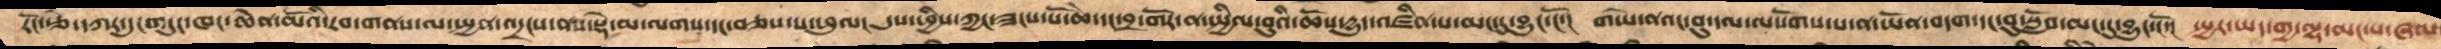རོང་རྩ་དཀར་དུང་གདུང་ཁང་ཆེན་མོའི་རབ་གནས་ལ་སྤྱན་འདྲངས་ནས་སྡེ་མ་ལགས་དང་བཅས་པ་ཕུལ།  དུས་ཕྱིས་ཀྱང་ཟངས་པོ་ཆེ་དང་བྲ་གོར་ན་སྤྱིལ་བུའི་ཆསོ་དྱུད་འཛིན་པ་མང་དུ་བྱུང་ངོ་།  གཡེ་ནའང་བུ་དལ་ལསོགས་པ་ཡོན་བདག་དང་བུ་སློབ་མང་དུ་བྱུང་ངོ་།  སྤྱར་ཡད་གྱ་ལྷ་མང་པ་ཞལ་
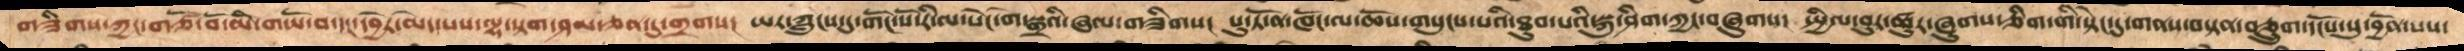གཟིགས་ཀྱང་གཙོ་བོ་མི་གཡོ་བ་དང་དབྱེར་མེད་པས་ལྷ་སྟག་ཤམ་ཅན་དུ་གྲགས།  ཡར་ཀླུངས་དུ་གོང་པོ་རི་ལ་སེང་གེ་སྒྲའི་ཞལ་གཟིགས།  པུ་ཏོ་ན་ཁོང་ལ་ཆོས་གསུངས་པའི་ཐུབ་པའི་སྐུ་ཤིག་ཀྱང་བཞུགས།  སྤྱིལ་བུར་ཚུར་ཞུགས་ཅིག་གི་སྟེང་དུ་གནས་བརྟན་བཅྲུག་དངོས་སུ་བྱོན་པས།
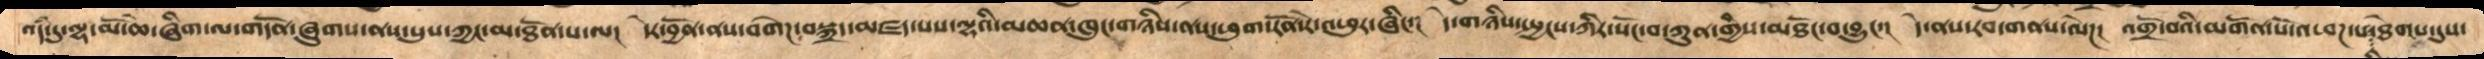འདཾ་དུ་ལྷ་མོ་ཆེ་ཞིག་ལ་གདོན་ཞུགས་ནས་སུས་ཀྱང་མ་ཐོན་པ་ལ།  དེར་བྱོན་ནས་བགེཌ་བསྐྲད་མཛད་པས་ལྷའི་མཆན་ཁུང་གཉིས་ནས་ཕུག་རོན་རེ་འཕུར་ཞིང་།  དེ་གཉིས་སྤྱང་ཀིར་སོང་བ་ཀུན་གྱིས་མཐོང་བ་བྱུང་།  དེ་ནས་རབ་གནས་ལེཌ།  འགྲོ་བའི་མགོན་པོ་འཕཌ་པ་ཐེགས་དུས་
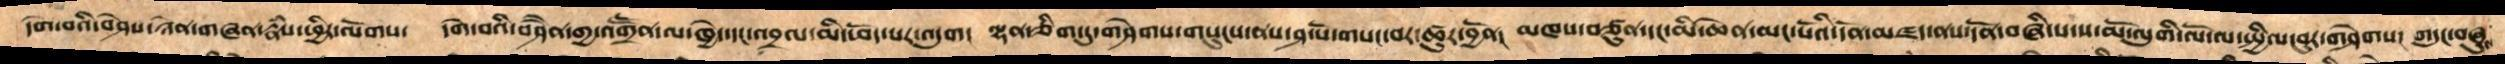དགེ་བའི་བཤེས་ཉེན་གཞན་རྣཾས་ཕྱིར་ལོགས་  དགེ་བའི་བཤཻན་གྱ་འགྲཽན་ལ་ཁྱེད་དང་འབྲལ་མི་ཕོད་པར་འདུག།  ལྷན་ཅིག་ཏུ་གཤེགས་གསུངས་ནས་ཤ་པོ་གསང་བར་ཚུན་བྱོན།  མཁས་བཙུན་དང་མི་ཆེན་མང་པོའི་དོན་མཛད་ནས་དོན་བཞི་པ་ས་མོ་ལུགི་ལོ་ལ་སྤྱིལ་བུར་གཤེགས།  གདུང་བཞུས
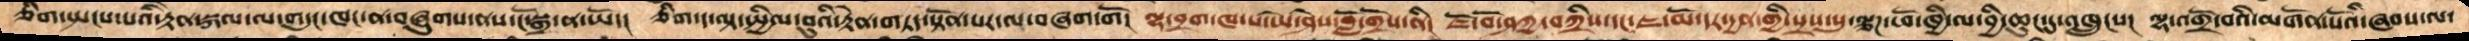ཅིག་སྤངས་པའི་རྟེན་སྐལ་ལ་གདུང་ཁང་ན་བཞུགས་ནས་ངོ་སྒྲ་ན་ཡོད།   ཅིག་ད་ལྟ་སྤྱིལ་བུའི་རྟེན་གཏད་སྟོན་པར་ལ་བཞག་གོ།  ལྷ་བྲག་ཁ་ས་ཡེ་ཤེས་བློ་གྲོས་ནི།  ཇོ་བོ་ཤཀྱ་བཀྲིས་དང་ཇ་མོ་དར་དྱན་གྱི་སྲས་སུ་ལྕཌ་ཕོ་ཁྱི་ལ་བྱི་ཆུང་དུ་འཁྲུངས།  ལྷ་འགྲོ་བའི་མགོན་པོའི་ཞབས་ལ་
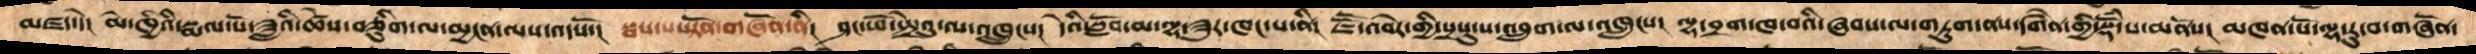མཛད་དེ།  མེ་ཁྱིའི་སྨལ་པོ་ཟླའི་ཚེས་བཅིུག་ལ་མྱངན་ལས་འདསོ་།  སྦས་པ་ཡྟོན་གཞོན་ནི།  ཤང་ཕོ་སྤྲེའུ་ལ་འཁྲུངས།  དེའི་སློབ་མ་ལྷ་ཟུར་ཁང་པ་ནི།  ཇཽ་འབེར་གྱི་སྲསུ་ས་འབྲུག་ལ་འཁྲུངས།  ལྷ་བྲག་ཁ་བའི་ཞབས་ལ་གཏུག་ནས་དགཻན་གྱི་སྡོམ་པ་མནོས།  མཁན་པོ་ལྷ་རུ་བ་གཞོན་
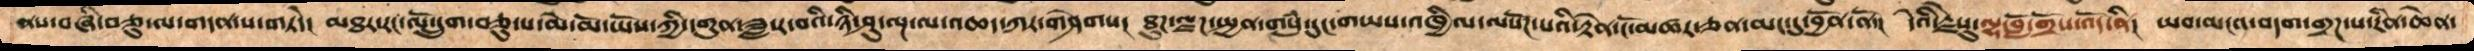ནས་བཞི་བཅུ་ལ་གདན་ས་གཏདེ།  མཐར་རང་ལོ་དྲུག་བཅུ་པ་མེ་མོ་ཡོས་ཀྱི་དགུན་ཟླ་ར་བའི་ཉི་ཤུ་ལྔ་ལ་འཆད་ཀར་གཤེགས།  ཐུཌ་ལྗཌ་སྤྱན་གསུཾ་དུང་གཡས་འཁྱིལ་ལསོཌ་པའི་རྟེན་ངོ་མཚར་ཅན་མང་དུ་བྱོན་ནོ་།   དེའི་རྗེསུ་ལྷ་བློ་གྲོས་འོད་ནི།  ཡབ་མངའ་བདག་གྲཌ་པ་རིན་ཆེན་
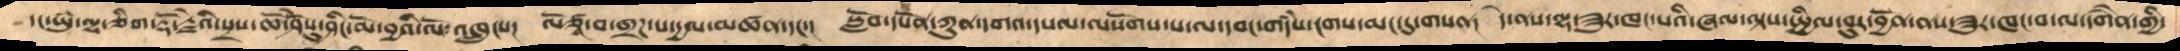དང་ཡུཾ་ལྷ་ཅིག་རྡོ་རྗེའི་སྲས་ཆོ་ེཤོསུ་ཤིང་མོ་བྱའི་ལོ་འཁྲུངས།  ལོཙཱ་བ་གྲཌ་པ་དྱལ་མཚན་དང་།   སློབ་དཔོན་ཀུན་དགའ་དཔལ་ལསོགས་པ་ལ་དབང་གདཾས་ངགས་མང་དུ་གསན།  དེ་ནས་ལྷ་ཟུར་ཁང་པའི་ཞལ་ལྟས་སྤྱིལ་བུར་བྱོན་ནས་ཟུར་ཁང་བ་ལ་དགཻན་གྱི་
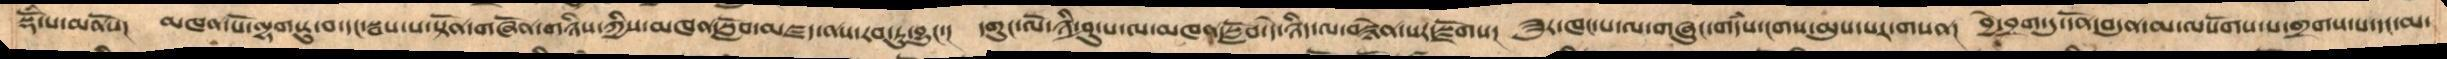སྡོཾ་པ་མནོས།  མཁན་པོ་ལྷག་རུ་བ་དང་སྦས་པ་སྟོན་གཞོན་གཉིས་ཀྱིས་མཁན་སློབ་མཛད་ནས་རབ་ཏུ་བྱུང་།  དགུང་ལོ་ཉི་ཤུ་པ་ལ་མཁན་སློབ་དེ་ཉིད་ལ་བསྙེན་པར་སྫོགས།  ཟུར་ཁང་པ་ལ་གཞུང་གདཾས་ངགས་མུས་པར་གསན།   བྱེ་བྲག་དུ་དོན་བདུན་མ་ལསོགས་པ་གྲགས་པ་དང་མ་
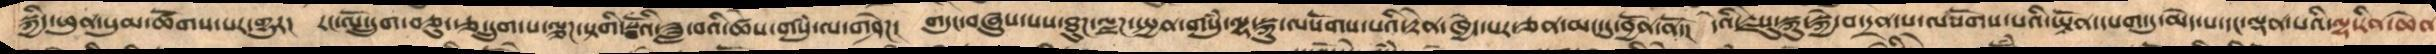སྐྱིད་ཕུན་སུམ་ཚོགས་པར་གྱུར་།  རང་ལོ་དྲུག་བཅུ་རྩ་དྲུག་པ་ལྕཌ་སྟགི་སྦོའི་ཟླ་བའི་ཚེས་གསུཾ་ལ་གཤེཌ།  གདུང་བཞུས་པས་ཐུཌ་ལྗཌ་སྤྱན་གསུཾ་ལྷ་སྐུ་ལསོགས་པའི་རྟེན་ཁྱེད་པར་ཅན་མང་དུ་བྱོན་ནོ།  དེའི་རྗེས་སུ་སྐུ་སྐྱེ་བ་དྲན་པ་ལསོགས་པའི་ཡྟོན་དཔག་ཏུ་མེད་པ་དང་ལྡན་པའི་ལྷ་རིན་ཆེན
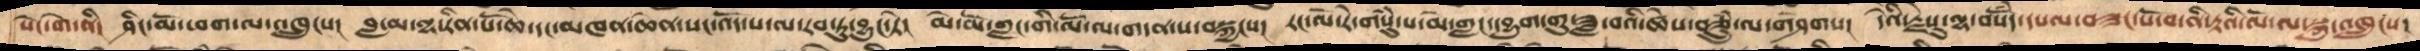སེང་གེ་ནི།  ཤིང་མོ་ཕག་ལ་འཁྲུངས།  བླ་མ་ལྷ་རིན་པོ་ཆེ་དང་མཁན་ཆེན་སང་འོད་པ་ལ་རབ་ཏུ་བྱུང་ཏེ།  མེ་མོ་གླང་གི་ལོ་ལ་གདན་ས་བསྐྱངས།  རང་ལོ་རེ་གསུཾ་པ་མེ་གླང་དབྱུག་གུ་ཟླ་བའི་ཚེས་བཅྲུཾ་ལ་གཤེགས།  དེའི་རྗེསུ་བསོཾད་དཔལ་བཟང་པོ་བ་ནི་རྟའི་ལོ་ལ་སྐུ་འཁྲུངས།
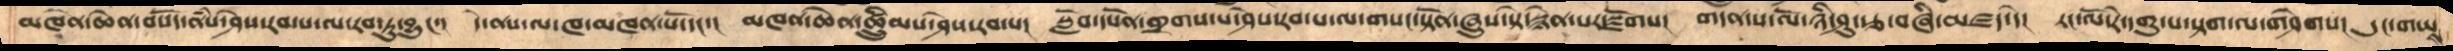མཁེན་ཆེན་བསོད་ནཾས་ཤེས་རབ་པ་ལ་རབ་ཏུ་བྱུང་།  དེ་ནས་ལ་ཁ་མཁན་པོ་དང་། མཁན་ཆེན་ཚྲིུམས་ཤེས་རབ་པ། སློབ་དཔོན་གྲགས་པ་ཤེས་རབ་པ་ལ་གསང་སྟོན་ཞུས་སྟེ་སྙེན་པར་སྫོགས། གདན་ས་ལོ་ཉི་ཤུ་རྩ་བཞི་མཛད་དེ། རང་ལོ་རེ་དགུ་པ་སྟག་ལ་གཤེགས། དུང་གཡས
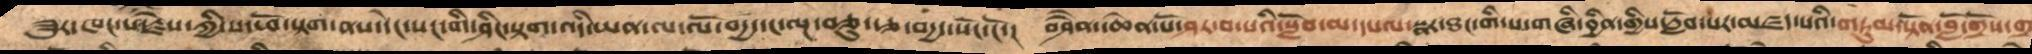ཟུར་ཁང་པ་རྗེས་ཀྱི་ས་ཕོ་སྟག་ནས་དེང་སང་གི་ཤིང་སྟག་འདི་ཡན་ལ་ལོ་བདྱ་དང་ལང་བཅུ་རྩ་བདྱད་སོང་ངོ་།   བཤཻན་ཆེན་པོ་ཤར་བ་པའི་སློབ་མ་དཔལ་སྣར་ཐང་གི་ས་གཞི་བྱིན་གྱིས་རློབ་པར་མཛད་པའི་གཏུམ་སྟོན་བློ་གྲོས་གྲ
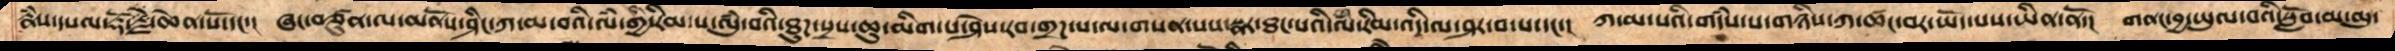རྣཾས་དཔལ་རྡོ་རྗེ་ཆེན་པོ་དང་།  ཞང་བཙུན་ལ་མནོས་ཤིང་ཀ་མ་བའི་ལཾ་གྱི་རིམ་པ་ལུཾ་བའི་ཐུཌ་སྲས་ཆུ་མིག་པ་ཤེས་རབ་གྲཌ་པ་ལ་གསན་པས་སྣར་ཐང་པའི་ལཾ་རིམ་འདི་ལ་ཤར་བ་པ་དང་།  ཀ་མ་པའི་གདཾས་པ་གཉིས་ཀ་ཚང་བར་ཡོད་པས་ཡིན་ནོ།  གནང་བྱ་ཡུལ་བའི་སློབ་མ་མུ་
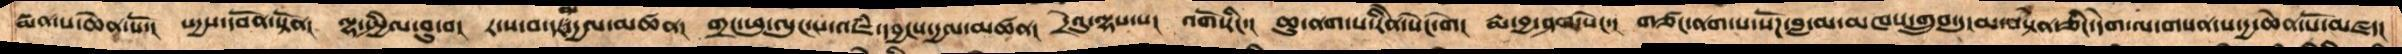སྨན་པ་ཆེན་པོ་།  སདྱས་དབོན་སྟེན།  ལྷ་སྤྱིལ་བུ་བ།  ར་ས་བ་དར་དྱལ་མཚན།  གྲང་ཕུ་ལུང་པ་འཇཾ་དབྱངས་དྱལ་མཚན།  དྲེའུ་ལྷས་པ།  འགོ་རིང་།  ཆུ་ནག་པ་རིནེ་སེང་གེ།  རྨ་བྱ་ཤག་སོང་།  གཙང་ནག་པ་སོཌ་བླ་མ་མཁས་གྲུབ་དུ་མ་བསྟན་ཅིང་དེག་ལ་གསན་པ་དྱ་ཆེན་པོ་མཛད།
